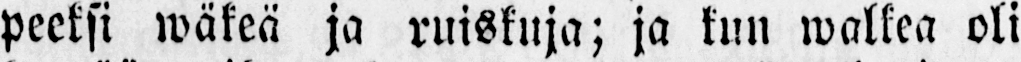peeksi wäkeä ja ruiskuja; ja kun walkea oli
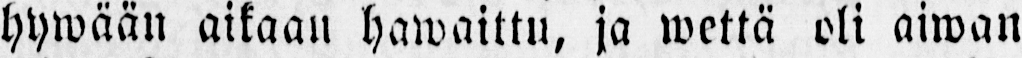hywään aikaan hawaittu, ja wettä oli aiwan
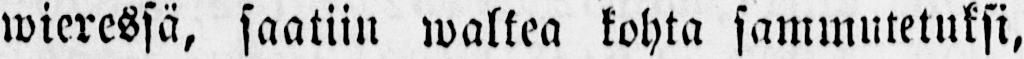wieressä, saatiin walkea kohta sammutetuksi,
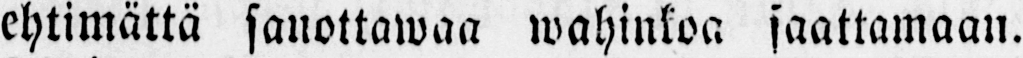ehtimättä sanottawaa wahinkoa saattamaan.
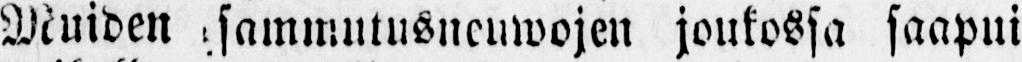Muiden sammutusneuwojen joukossa saapui
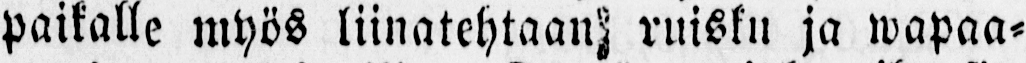paikalle myös liinatehtaan ruisku ja wapaa-
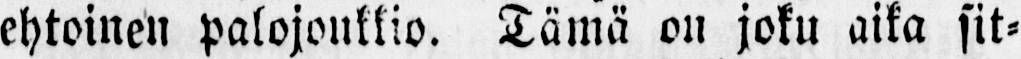ehtoinen palojoukkio. Tämä on joku aika sit-
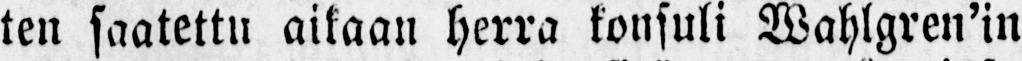ten saatettu aikaan herra konsuli Wahlgren’in
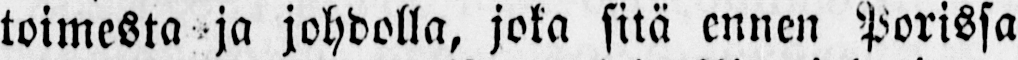toimesta ja johdolla, joka sitä ennen Porissa
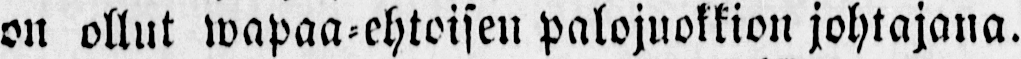on ollut wapaa-ehtoisen palojuokkion johtajana.
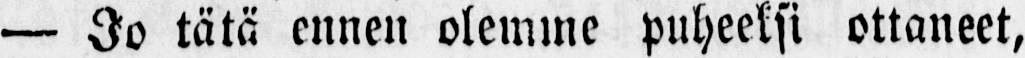— Jo tätä ennen olemme puheeksi ottaneet,
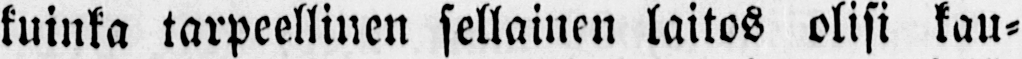kuinka tarpeellinen sellainen laitos olisi kau-
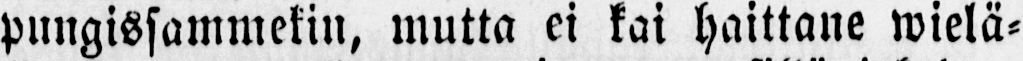pungissammekin, mutta ei kai haittane wielä-
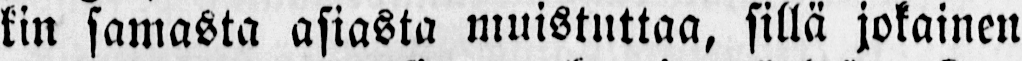kin samasta asiasta muistuttaa, sillä jokainen
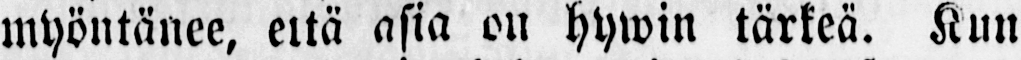myöntänee, että asia on hywin tärkeä. Kun
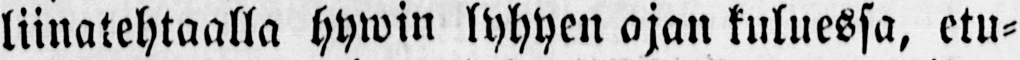liinatehtaalla hywin lyhyen ojan kuluessa, etu-
